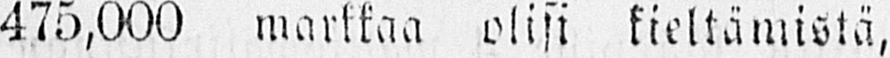475,000 markkaa olisi kieltämistä,
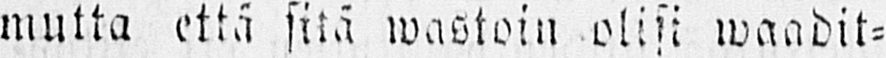mutta että sitä wastoin olisi waadit-
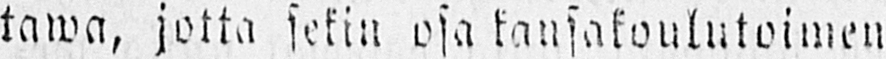tawa, jotta sekin osa kansakoulutoimen
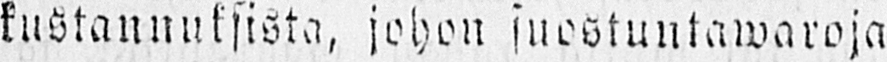kustannuksista, johon suostuntawaroja
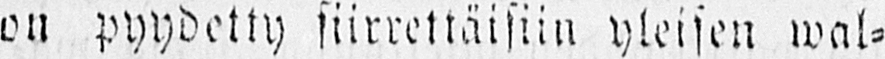on pyydetty siirrettäisiin yleisen wal-
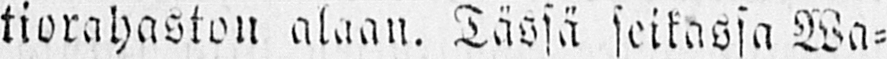tiorahaston alaan. Tässä seikassa Wa-
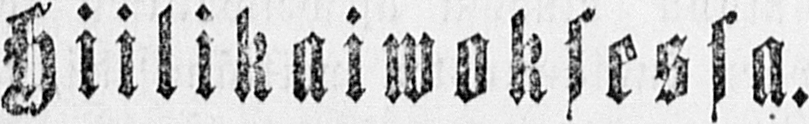Hiilikaiwoksessa.
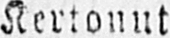Kertonut
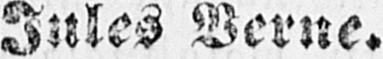Jules Verne.
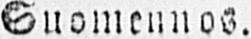Suomennos.
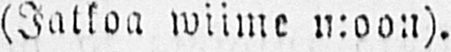(Jatkoa wiime n:oon).
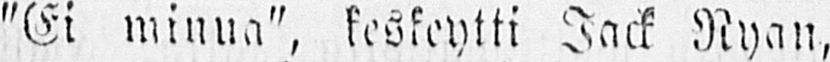"Ei minua", keskeytti Jack Nyan,
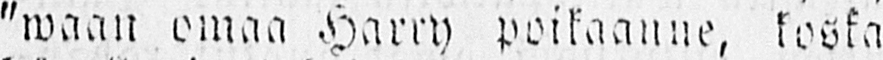"waan omaa Harry poikaanne, koska
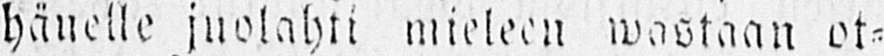hänelle juolahti mieleen wastaan ot-
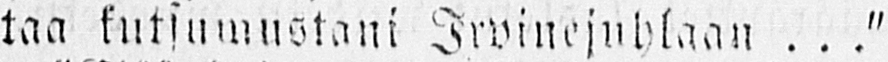taa kutsumustani Irvinejuhlaan"
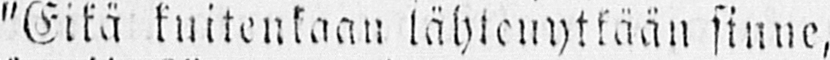"Eikä kuitenkaan lähtenytkään sinne,
